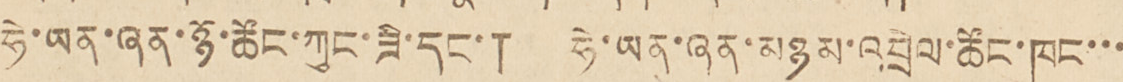ཧེ་ཡན་ཞན་ཉོ་ཚོང་ཀུང་ཟི་དང་། ཧེ་ཡན་ཞན་མཉམ་འབྲེལ་ཚོང་ཁང་་་
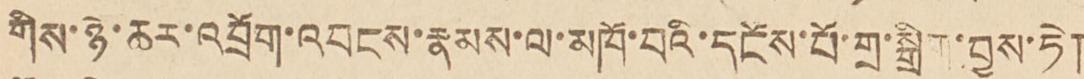གིས་ཉེ་ཆར་འབྲོག་འབངས་རྣམས་ལ་མཁོ་བའི་དངོས་པོ་གྲ་སྒྲིག་བྱས་ཏེ།
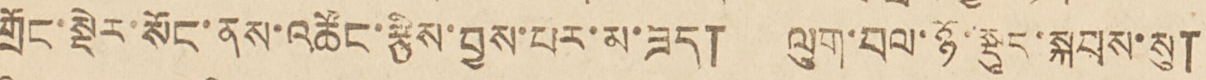གྲོང་སྡེར་སོང་ནས་འཚོང་རྩིས་བྱས་པར་མ་ཟད། ལུག་བལ་ཉོ་སྡུད་སྐབས་སུ།
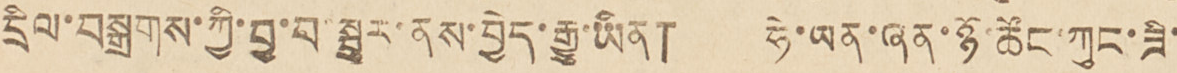དྲིལ་བསྒྲགས་ཀྱི་བྱ་བ་སྦྲར་ནས་བྱེད་རྒྱུ་ཡིན། ཧེ་ཡན་ཞན་ཉོ་ཚོང་ཀུང་ཟི་
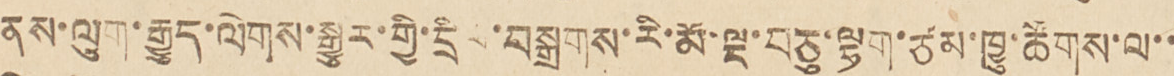ནས་ལུག་རྒྱུད་ལེགས་སྒྱུར་གྱི་དྲིལ་བསྒྲགས་རི་མོ་ལྔ་བཅུ་ལྷག་ཙམ་ཁྱུ་ཚོགས་ལ་་
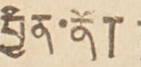བྱིན་ནོ༎
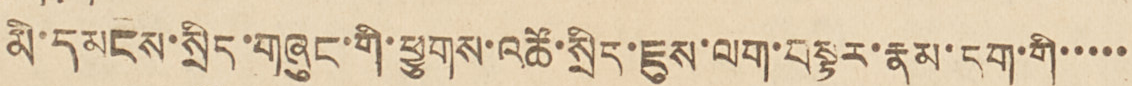མི་དམངས་སྲིད་གཞུང་གི་ཕྱུགས་འཚོ་སྲིད་ཇུས་ལག་བསྟར་རྣམ་དག་གི་་་་་
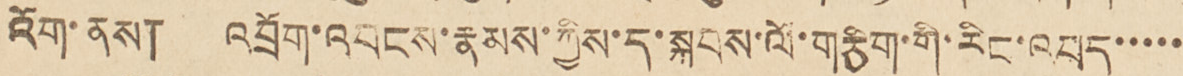འོག་ནས། འབྲོག་འབངས་རྣམས་ཀྱིས་ད་སྐབས་ལོ་གཅིག་གི་རིང་འབད་་་་་
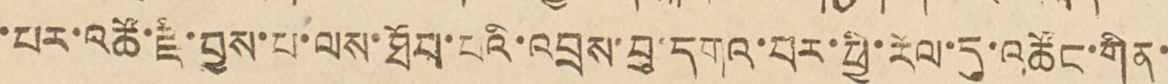་པར་འཚོ་རྗི་བྱས་པ་ལས་ཐོབ་པའི་འབྲས་བུ་དགའ་བར་ཕྱི་རོལ་དུ་འཚོང་གིན་
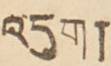འདུག།
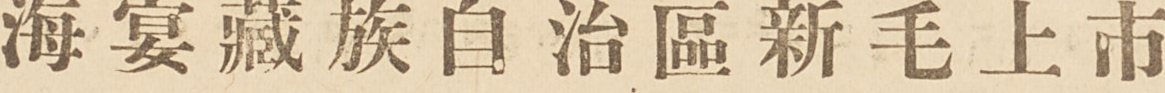海晏藏族自治區新毛上市
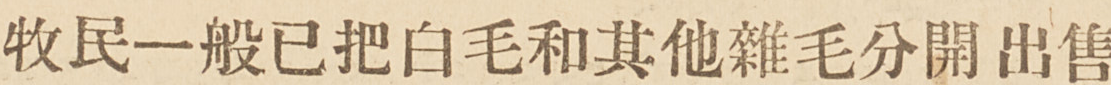牧民一般已把白毛和其他雜毛分開出售
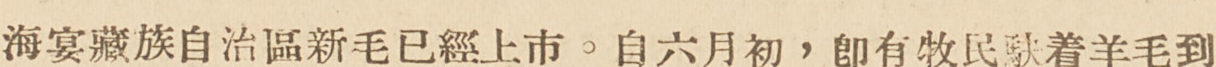海晏藏族自治區新毛已經上市。自六月初，即有牧民䭾着羊毛到
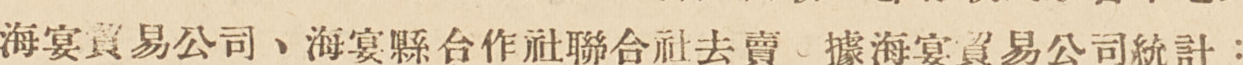海晏貿易公司、海晏縣合作社聯合社去賣。據海晏貿易公司統計：
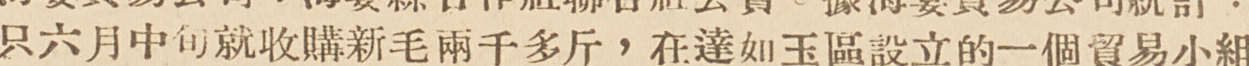只六月中旬就收購新毛兩千多斤，在達如玉區設立的一個貿易小組
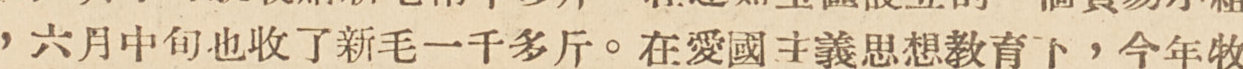，六月中旬也收了新毛一千多斤。在愛國主義思想教育下，今年牧
